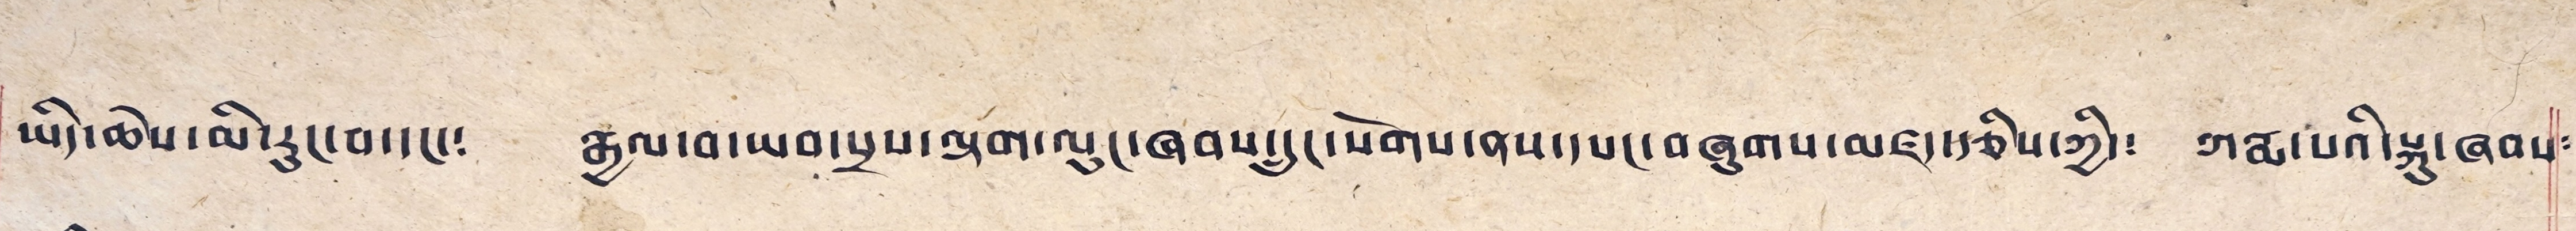ཡིད་ཆེས་མི་རྡུང་བ་དང་༴ རྒྱལ་བ་ཡབ་སྲས་ལྟག་ལུང་ཞབས་དྲུང་སོགས་ནས་དཔང་བཞུགས་མཛད་རྩིས་ཀྱི་༴ ཀརྨ་པའི་སྐུ་ཞབས༴
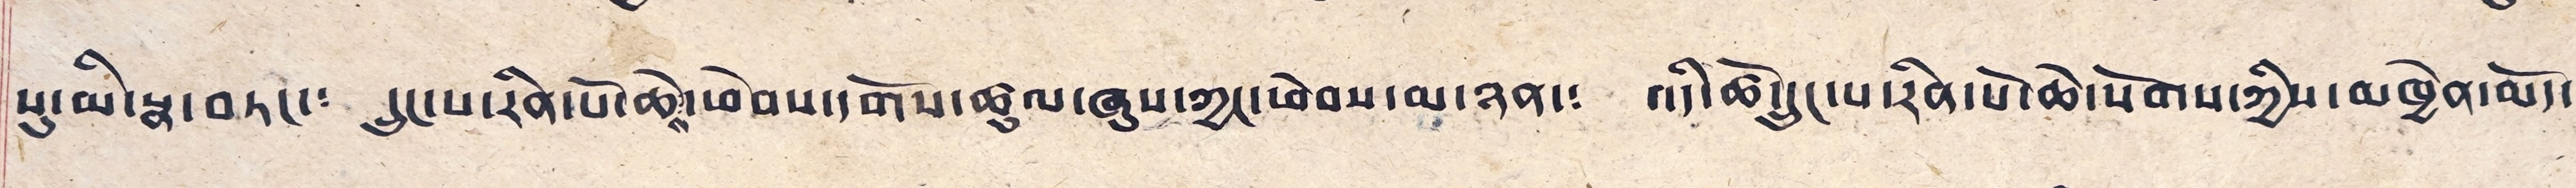སུ་མི་སྣ་བཏང་༴ དྲུང་པ་རིན་པོ་ཆེ་ཕེབས་དགོས་ཚུལ་ཞུས་ཀྱང་ཕེབས་མ་ཉན་༴ འདི་ཚེ་དྲུང་པ་རིན་པོ་ཆེ་སོགས་ཀྱིས་མཁྱེན་མོད་༴
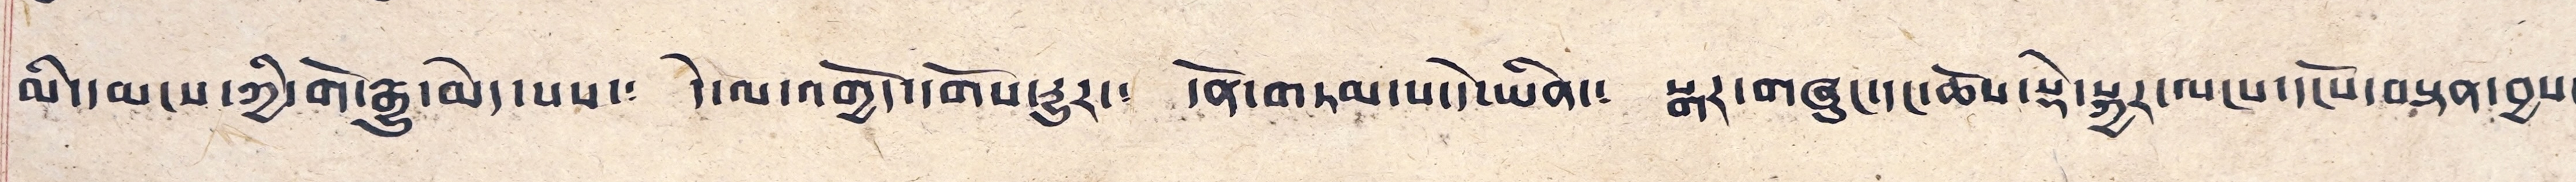མི་དམངས་ཀྱི་གོ་རྒྱུ་མེད་པས་༴ དེ་ལ་འགྱོད་དགོས་རྒྱུར་། དོན་གཏམ་པ་དེ་ཡིན་༴ སྒར་གཞུང་དང་ཆོས་སྡེ་སྐྱར་ལངས་དངོས་བསྟན་བྱས་
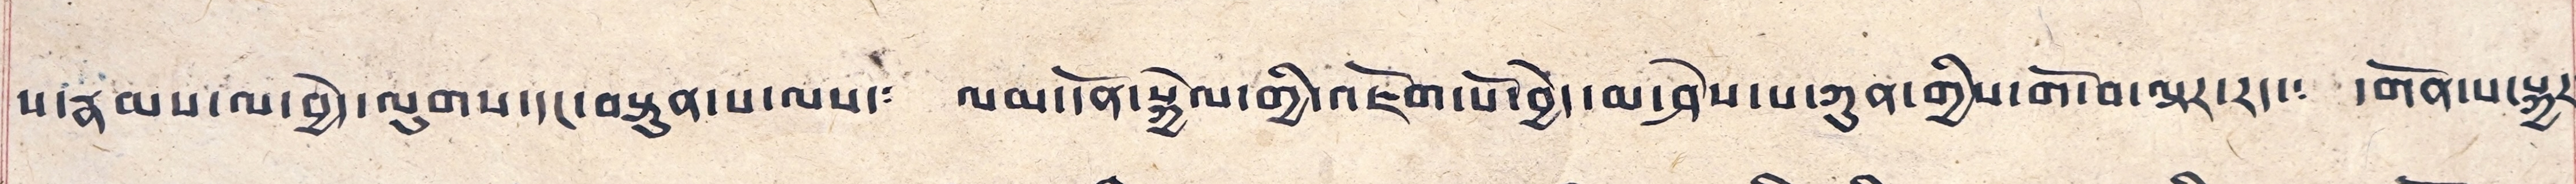པ་རྣམས་ལ་བྱེད་ལུགས་དང་བསྟུན་པ་ལས་༴ ལམ་དོན་སྐྱེལ་གྱི་འཇོག་པོ་བྱེད་མ་ཤེས་པ་ཀུན་གྱིས་གོ་བ་སྟར་རང་༴ དགོན་པ་སྐྱར༴
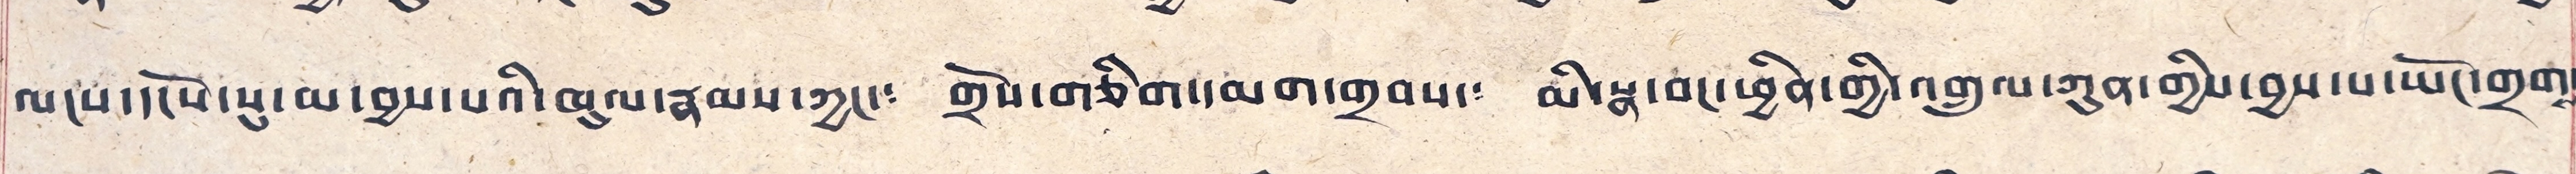ལངས་དངོས་སུ་མ་བྱས་པའི་ཁུལ་རྣམས་ཀྱང་༴ གྲོས་གཅིག་དམག་གྲབས་༴ མི་སྣ་བང་ཕྱིན་གྱི་འགྲུལ་ཀུན་གྱིས་བྱས་པ་ཡོང་གྲགྶ་
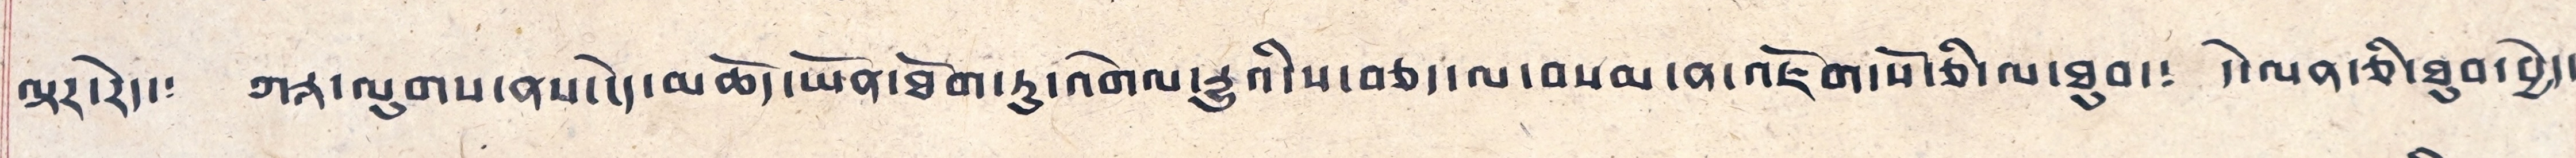ལྟར་རེད་༴ ཀར་ལུགས་ནས་ངེད་མཆོད་ཡོན་ཐོག་ཏུ་འགེལ་རྒྱུའི་ས་བཅད་ལ་བསམ་ན་འཇོག་པོ་ཅི་ལ་ཐུབ་༴ དེ་ལན་ཅི་ཐུབ་བྱེད་
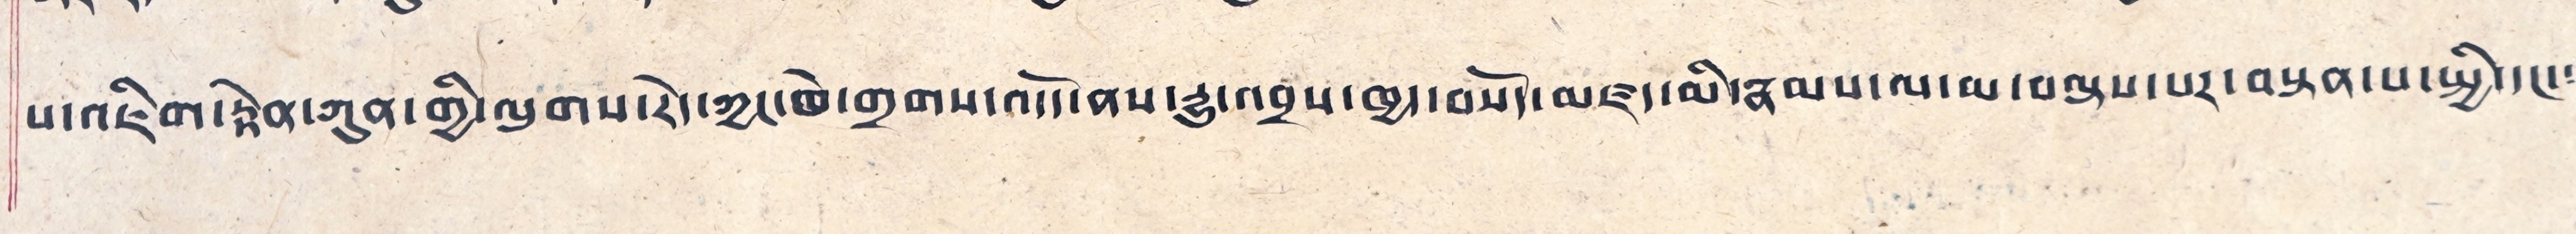པ་འཇིག་རྟེན་ཀུན་གྱི་ལུགས་རེ་ཀྱང་ཁེ་གྲགས་འདོད་ནས་རྒྱུ་འབྲས་ཁྱད་བསོད་མཛད་མི་རྣམས་ལ་མ་བསྟས་པར་བསྟན་པ་སྤྱི་དང་༴
